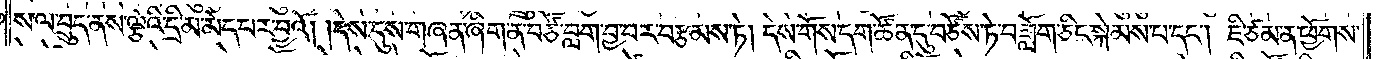ས་ལ་བྲུད་ནས་ལྕེའི་དྲི་མ་མེད་པར་བྱའོ། །དེས་དུས་གཞན་ཞིག་ན་བཙོ་བླག་བྱ་བར་བརྩམས་ཏེ། དེས་གོས་དག་ཚོན་དུ་བཙོས་ཏེ་བཟློག་ཅིང་སྐེམས་པ་དང༌། ཇི་ཙམ་ན་ཕྱོགས་
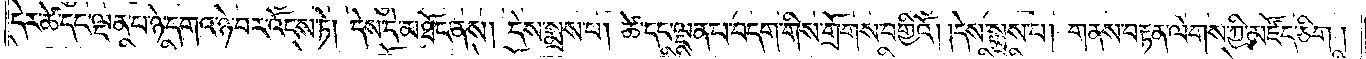དེར་ཚེ་དང་ལྡན་པ་ཉེ་དགའ་ཉེ་བར་འོངས་ཏེ། དེས་དེ་མཐོང་ནས། དེས་སྨྲས་པ། ཚེ་དང་ལྡན་པ་བདག་གིས་གྲོགས་བགྱིའོ། །དེས་སྨྲས་པ། གནས་བརྟན་ལེགས་ཀྱི་མཛོད་ཅིག།
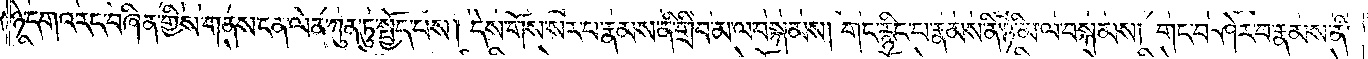ཉེ་དགའ་རང་བཞིན་གྱིས་གནས་ངན་ལེན་ཀུན་ཏུ་སྤྱོད་པས། དེས་གོས་སར་པ་རྣམས་ནི་གྲིབ་མ་ལ་བསྐམས། གང་རྙིང་པ་རྣམས་ནི་ཉི་མ་ལ་བསྐམས། གང་བཤེར་བ་རྣམས་ནི་
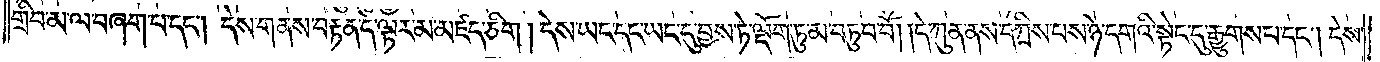གྲིབ་མ་ལ་བཞག་པ་དང༌། དེས་གནས་བརྟན་དེ་ལྟར་མ་མཛད་ཅིག །དེས་ཡང་དང་ཡང་དུ་བྱས་ཏེ་ལྡོག་ཏུ་མ་བཏུབ་བོ། །དེ་ཀུན་ནས་དཀྲིས་པས་ཉེ་དགའི་སྟེང་དུ་རྒྱུགས་པ་དང༌། དེས་
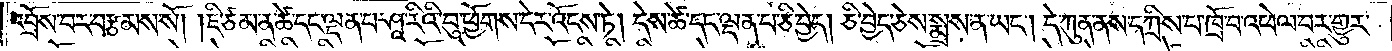འབྲོས་པར་བརྩམས་སོ། །ཇི་ཙམ་ན་ཚེ་དང་ལྡན་པ་ཤཱ་རིའི་བུ་ཕྱོགས་དེར་འོངས་ཏེ། དེས་ཚེ་དང་ལྡན་པ་ཅི་བྱེད། ཅི་བྱེད་ཅེས་སྨྲས་ན་ཡང༌། དེ་ཀུན་ནས་དཀྲིས་པ་ཁྲོ་བ་འཕེལ་བར་གྱུར་
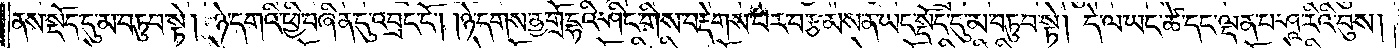ནས་སྡོད་དུ་མ་བཏུབ་སྟེ། ཉེ་དགའི་ཕྱི་བཞིན་དུ་འབྲང་ངོ༌། །ཉེ་དགས་ནྱ་གྲོ་དྷའི་ཤིང་གིས་བརྡེགས་པར་བརྩམས་ན་ཡང་སྡོང་དུ་མ་བཏུབ་སྟེ། དེ་ལ་ཡང་ཚེ་དང་ལྡན་པ་ཤཱ་རིའི་བུས།
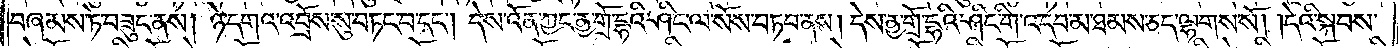བཞམས་ཏེ་བཟུང་ནས། ཉེ་དགའ་འབྲོས་སུ་བཏང་བ་དང༌། དེས་འོན་ཀྱང་ནྱ་གྲོ་དྷའི་ཤིང་ལ་སོས་བཏབ་ནས། དེས་ནྱ་གྲོ་དྷའི་ཤིང་གི་འདབ་མ་ཐམས་ཅད་ལྷགས་སོ། །དེའི་སྐབས་
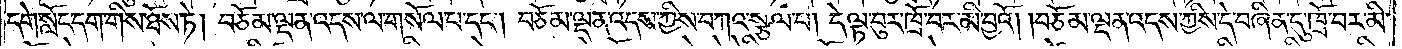དགེ་སློང་དག་གིས་ཐོས་ཏེ། བཅོམ་ལྡན་འདས་ལ་གསོལ་པ་དང༌། བཅོམ་ལྡན་འདས་ཀྱིས་བཀའ་སྩལ་པ། དེ་ལྟ་བུར་ཁྲོ་བར་མི་བྱའོ། །བཅོམ་ལྡན་འདས་ཀྱིས་དེ་བཞིན་དུ་ཁྲོ་བར་མི་
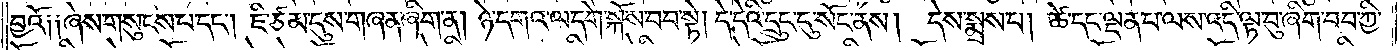བྱའོ། །ཞེས་གསུངས་པ་དང༌། ཇི་ཙམ་དུས་གཞན་ཞིག་ན། ཉེ་དགའ་ལ་དགེ་སྐོས་བབ་སྟེ། དེ་དེའི་དྲུང་དུ་སོང་ནས། དེས་སྨྲས་པ། ཚེ་དང་ལྡན་པ་ལས་འདི་ལྟ་བུ་ཞིག་བབ་ཀྱི་
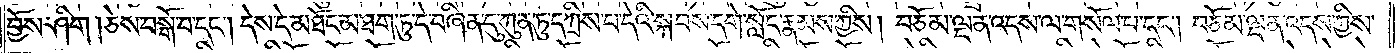བྱོས་ཤིག །ཅེས་བསྒོ་བ་དང༌། དེས་དེ་མཐོང་མ་ཐག་ཏུ་དེ་བཞིན་དུ་ཀུན་ཏུ་དཀྲིས་པ་དེའི་སྐབས་དགེ་སློང་རྣམས་ཀྱིས། བཅོམ་ལྡན་འདས་ལ་གསོལ་པ་དང༌། བཅོམ་ལྡན་འདས་ཀྱིས་
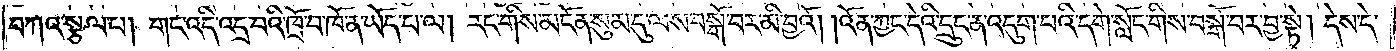བཀའ་སྩལ་པ། གང་འདི་འདྲ་བའི་ཁྲོ་བ་ཁོ་ན་ཡོད་པ་ལ། རང་གིས་མངོན་སུམ་དུ་ལས་བསྒོ་བར་མི་བྱའོ། །འོན་ཀྱང་དེའི་དྲུང་ན་འདུག་པའི་དགེ་སློང་གིས་བསྒོ་བར་བྱ་སྟེ། དེས་དེ་
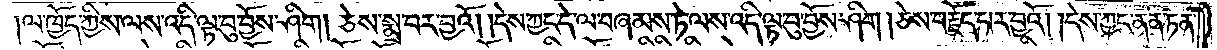ལ་ཁྱོད་ཀྱིས་ལས་འདི་ལྟ་བུ་བྱོས་ཤིག །ཅེས་སྨྲ་བར་བྱའོ། །དེས་ཀྱང་དེ་ལ་བཞམས་ཏེ་ལས་འདི་ལྟ་བུ་བྱོས་ཤིག །ཅེས་བརྗོད་པར་བྱའོ། །དེས་ཀྱང་ནན་ཏན་
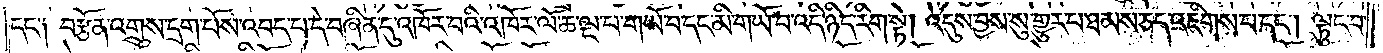དང༌། བརྩོན་འགྲུས་དྲག་པོས་འབད་པ་དེ་བཞིན་དུ་འཁོར་བའི་འཁོར་ལོ་ཆ་ལྔ་པ་གཡོ་བ་དང་མི་གཡོ་བ་འདི་ཉིད་རིག་སྟེ། འདུས་བྱས་སུ་གྱུར་པ་ཐམས་ཅད་འཇིགས་པ་དང༌། ལྟུང་བ་
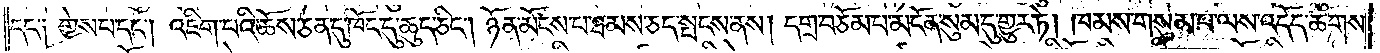དང༌། གྱེས་པ་དང༌། འཇིག་པའི་ཆོས་ཅན་དུ་ཁོང་དུ་ཆུད་ཅིང༌། ཉོན་མོངས་པ་ཐམས་ཅད་སྤངས་ནས། དགྲ་བཅོམ་པ་མངོན་སུམ་དུ་གྱུར་ཏེ། ཁམས་གསུམ་པ་ལས་འདོད་ཆགས་
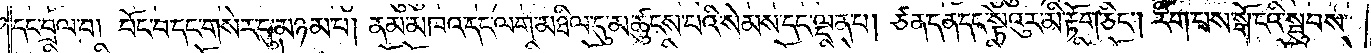དང་བྲལ་བ། བོང་བ་དང་གསེར་དུ་མཉམ་པ། ནམ་མཁའ་དང་ལག་མཐིལ་དུ་མཚུངས་པའི་སེམས་དང་ལྡན་པ། ཙན་དན་དང་སྟེའུར་མི་རྟོག་ཅིང༌། རིག་པས་སྒོ་ངའི་སྦུབས་
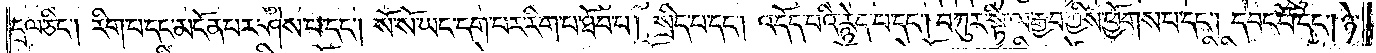དྲལ་ཅིང༌། རིག་པ་དང་མངོན་པར་ཤེས་པ་དང༌། སོ་སོ་ཡང་དག་པར་རིག་པ་ཐོབ་པ། སྲིད་པ་དང༌། འདོད་པའི་རྙེད་པ་དང༌། བཀུར་སྟི་ལ་རྒྱབ་ཀྱིས་ཕྱོགས་པ་དང༌། དབང་པོ་དང༌། ཉེ་
